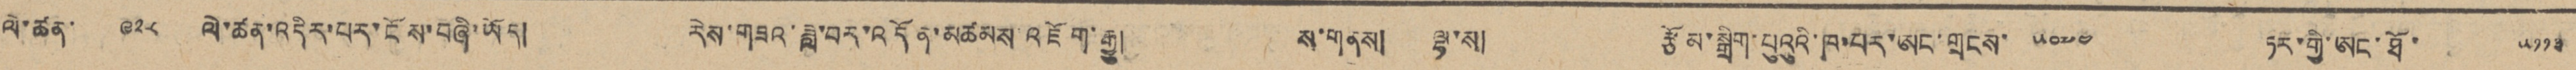ལེ་ཚན་ ༩༢༨ ལེ་ཚན་འདིར་པར་ངོས་བཞི་ཡོད། རེས་གཟའ་ཟླ་བར་འདོན་མཚམས་འཇོག་རྒྱུ། ས་གནས། ལྷ་ས། རྩོམ་སྒྲིག་པུའུའི་ཁ་པར་ཨང་གྲངས་ ༥༠༧༤ ཏར་གྱི་ཨང་ཐོ་ ༥༡༡༣
